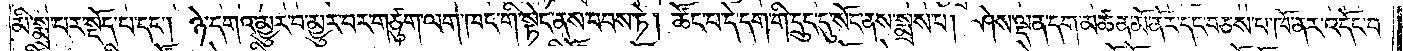མི་སྨྲ་པར་སྡོད་པ་དང༌། ཉེ་དགའ་མྱུར་བ་མྱུར་བར་གཙུག་ལག་ཁང་གི་སྟེང་ནས་བབས་ཏེ། ཚོང་པ་དེ་དག་གི་དྲུང་དུ་སོང་ནས་སྨྲས་པ། ཤེས་ལྡན་དག་མཚན་མོ་ནོར་དང་བཅས་པ་ཁོ་ནར་འདོང་བ་
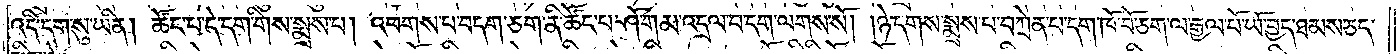འདི་དག་སུ་ཡིན། ཚོང་པ་དེ་དག་གིས་སྨྲས་པ། འཕགས་པ་བདག་ཅག་ནི་ཚོང་པ་ཤོ་གམ་འདྲལ་བ་དག་ལགས་སོ། །ཉེ་དགས་སྨྲས་པ་བཀྲེན་པ་དག་ཁོ་བོ་ཅག་ལ་རྒྱལ་པོ་ཡོ་བྱད་ཐམས་ཅད་
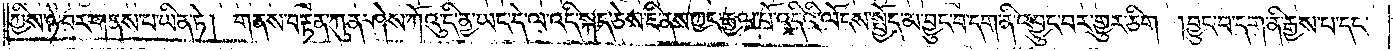ཀྱིས་ཉེ་བར་གནས་པ་ཡིན་ཏེ། གནས་བརྟན་ཀུན་ཤེས་ཀོའུ་དི་ནྱ་ཡང་དེ་ལ་འདི་སྐད་ཅེས་ཇི་ནས་ཀྱང་རྒྱལ་པོ་འདིའི་ལོངས་སྤྱོད་མ་བྱུང་བ་དག་ནི་འབྱུང་བར་གྱུར་ཅིག །བྱུང་བ་དག་ནི་རྒྱས་པ་དང་
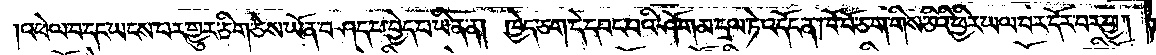འཕེལ་བ་དང་ཡངས་པར་གྱུར་ཅིག་ཅེས་ཡོན་བཤད་པ་བྱེད་པ་ཡིན་ན། ཁྱེད་ཅག་དེ་དབང་བའི་ཤོ་གམ་དྲལ་ཏེ་འདོང་ན་ཁོ་བོ་ཅག་གིས་ཅིའི་ཕྱིར་ཡལ་བར་དོར་བར་བྱ།
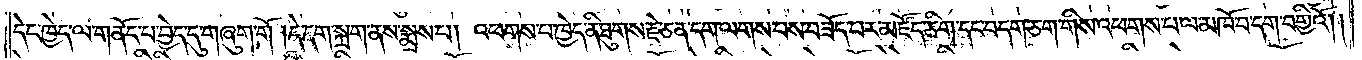དེང་ཁྱེད་ལ་གནོད་པ་བྱེད་དུ་གཞུག་གོ །དེ་དག་སྐྲག་ནས་སྨྲས་པ། འཕགས་པ་ཁྱེད་ནི་ཐུགས་རྗེ་ཅན་དག་ལགས་པས་བཟོད་པར་མཛོད་ཅིག་དང་བདག་ཅག་གིས་འཕགས་པ་ལ་མཁོ་བ་དག་བགྱིའོ། །
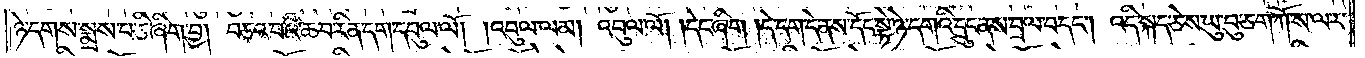ཉེ་དགས་སྨྲས་པ་ཅི་ཞིག་བྱ། བཅའ་བའི་ཆ་བ་རིན་དག་དབུལ་ལོ། །འབུལ་ལམ། འབུལ་ལོ། །དེང་ཞིག །དེ་དག་དེ་ནས་དོང་སྟེ་ཉེ་དགའི་དྲུང་ནས་བྲལ་བ་དང༌། འདི་སྐད་ཅེས་ཡུ་བུ་ཅག་ཀོ་ས་ལ་ར་
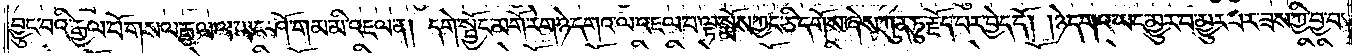བྱུང་བའི་རྒྱལ་པོ་གསལ་རྒྱལ་ལ་ཡང་ཤོ་གམ་མི་འཇལ་ན། དགེ་སྦྱོང་མགོ་རེག་ཉེ་དགའ་ལ་འཇལ་བ་ལྟ་སྨོས་ཀྱང་ཅི་དགོས་ཞེས་ཀུན་ཏུ་བརྗོད་པར་བྱེད་དོ། །ཉེ་དགའ་ཡང་མྱུར་བ་མྱུར་བར་ཟས་ཀྱི་བྱ་བ་
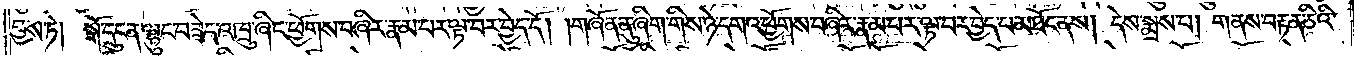བྱས་ཏེ། སྒོ་དྲུང་ན་ལྷུང་བཟེད་འཁྲུ་ཞིང་ཕྱོགས་བཞིར་རྣམ་པར་ལྟ་བར་བྱེད་དོ། །གཞོན་ནུ་ཞིག་གིས་ཉེ་དགའ་ཕྱོགས་བཞིར་རྣམ་པར་ལྟ་བར་བྱེད་པ་མཐོང་ནས། དེས་སྨྲས་པ། གནས་བརྟན་ཅིའི་
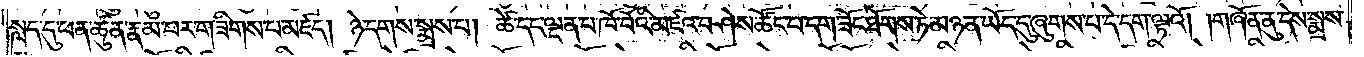སླད་དུ་ཕན་ཚུན་རྣམ་པར་གཟིགས་པ་མཛད། ཉེ་དགས་སྨྲས་པ། ཚེ་དང་ལྡན་པ་ཁོ་བོའི་མཛའ་བཤེས་ཚོང་པ་དག་ཟོང་ཐོགས་ཏེ་མཉན་ཡོད་དུ་ཞུགས་པ་དེ་དག་ལྟའོ། །གཞོན་ནུ་དེས་སྨྲས་
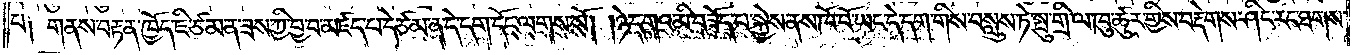པ༑ གནས་བརྟན་ཁྱོད་ཇི་ཙམ་ན་ཟས་ཀྱི་བྱ་བ་མཛད་པ་དེ་ཙམ་ན་དེ་དག་དོང་ལགས་སོ། །ཉེ་དགའ་མི་བཟོད་པ་སྐྱེས་ནས་ཁོ་བོ་ཡང་དེ་དག་གིས་བསླུས་ཏེ་སྤུ་གྲི་ལ་ཁུ་ཚུར་གྱིས་བརྡེགས་ཤིང་རང་ཐགས་
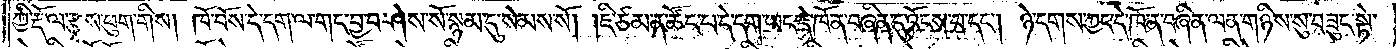ཀྱི་རྡོ་ལ་རྩྭས་ཕུག་གིས། ཁོ་བོས་དེ་དག་ལ་གང་བྱ་བ་ཤེས་སོ་སྙམ་དུ་སེམས་སོ། །ཇི་ཙམ་ན་ཚོང་པ་དེ་དག་ཡང་དེ་ཁོ་ན་བཞིན་དུ་འོངས་པ་དང༌། ཉེ་དགས་ཀྱང་དེ་ཁོ་ན་བཞིན་ལན་གཉིས་སུ་བཟུང་སྟེ་
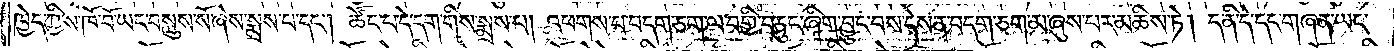ཁྱེད་ཀྱིས་ཁོ་བོ་ཡང་བསླུས་སོ་ཞེས་སྨྲས་པ་དང༌། ཚོང་པ་དེ་དག་གིས་སྨྲས་པ། འཕགས་པ་བདག་ཅག་ལ་བགྱི་བ་ཅུང་ཞིག་བྱུང་བས་དེས་ན་བདག་ཅག་མ་ཞུས་པར་མཆིས་ཏེ། ད་ནི་དེ་དང་གཞན་ཡང་
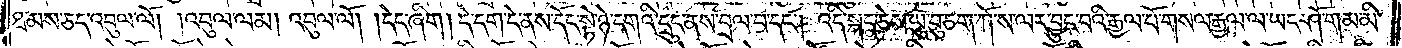ཐམས་ཅད་འབུལ་ལོ། །འབུལ་ལམ། འབུལ་ལོ། །དེད་ཞིག། དེ་དག་དེ་དག་དེ་ནས་དོང་སྟེ་ཉེ་དགའི་དྲུང་ནས་བྲལ་བ་དང༌། འདི་སྐད་ཅེས་ཡུ་བུ་ཅག་ཀོ་ས་ལར་བྱུང་བའི་རྒྱལ་པོ་གསལ་རྒྱལ་ལ་ཡང་ཤོ་གམ་མི་
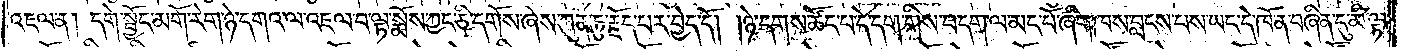འཇལ་ན། དགེ་སྦྱོང་མགོ་རེག་ཉེ་དགའ་ལ་འཇལ་བ་ལྟ་སྨོས་ཀྱང་ཅི་དགོས་ཞེས་ཀུན་ཏུ་རྗོད་པར་བྱེད་དོ། །ཉེ་དགས་ཚོང་པ་དེ་དག་གིས་བདག་ལ་མང་པོ་ཞིག་ཁས་བླངས་པས་ཡང་དེ་ཁོ་ན་བཞིན་དུ་མི་ལྟ་
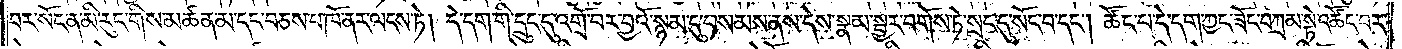བར་སོང་ན་མི་རུང་གིས་མཚན་མ་དང་བཅས་པ་ཁོ་ནར་ལངས་ཏེ། དེ་དག་གི་དྲུང་དུ་འགྲོ་བར་བྱའོ་སྙམ་དུ་བསམས་ནས་དེས་སྣམ་སྦྱར་བགོས་ཏེ་སྲང་དུ་སོང་བ་དང༌། ཚོང་པ་དེ་དག་ཀྱང་ཟོང་བཀྲམ་སྟེ་འཚོང་བར་
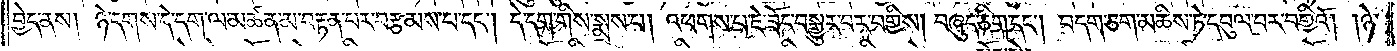བྱེད་ནས། ཉེ་དགས་དེ་དག་ལ་མཚན་མ་བརྟན་པར་བརྩམས་པ་དང༌། དེ་དག་གིས་སྨྲས་པ། འཕགས་པ་ཇེ་ཟོང་བསྒྱུར་བར་བགྱིས། བཞུད་ཅིག་དང༌། བདག་ཅག་མཆིས་ཏེ་དབུལ་བར་བགྱིའོ། །ཉེ་
